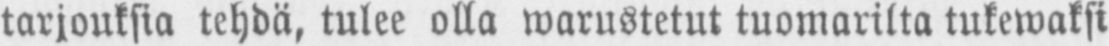tarjouksia tehdä, tulee olla warustetut tuomarilta tukewaksi
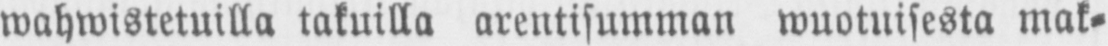wahwistetuilla takuilla arentisumman wuotuisesta mak-
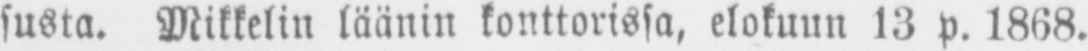susta. Mikkelin läänin konttorissa, elokuun l3 p. 1868.
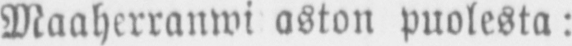Maaherranwiraston puolesta:
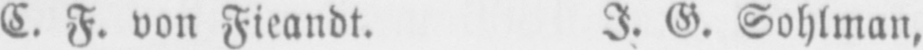E. F.von Fieandt. I. G. Sohlman,
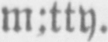m:tty.
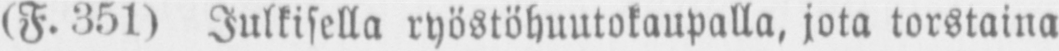(F.351) Julkisella ryöstöhuutokaupalla, jota torstaina
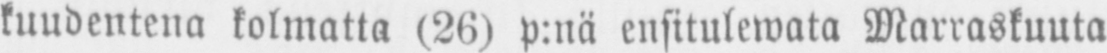kuudentena kolmatta (26) p:nä ensitulewata Marraskuuta
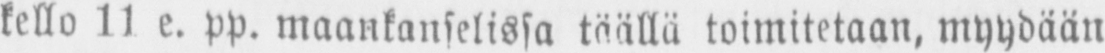kello 11 e. pp. maankanselissa täällä toimitetaan, myydään
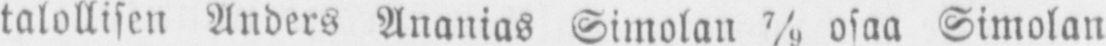talollisen Anders Ananias Simolan 7/9 osaa Simolan
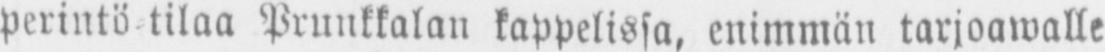perintö tilaa Prunkkalan kappelissa, enimmän tarjoawalle
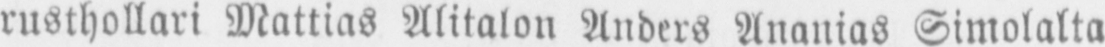rusthollari Mattias Alitalon Anders Ananias Simolalta
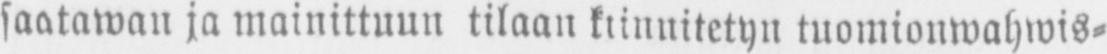säätäwän ja mainittuun tilaan kiinnitetyn tuomionwahwis-
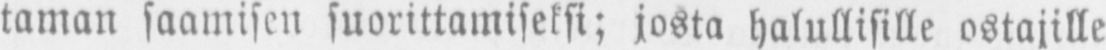taman saamisen suorittamiseksi; josta halullisille ostajille
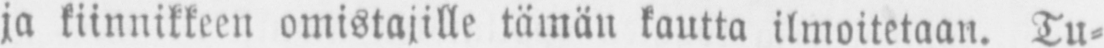ja kiinnikkeen omistajille tämän kautta ilmoitetaan. Tu-
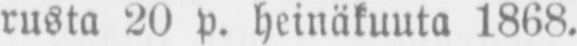rusta 20 p. heinäkuuta 1868.
